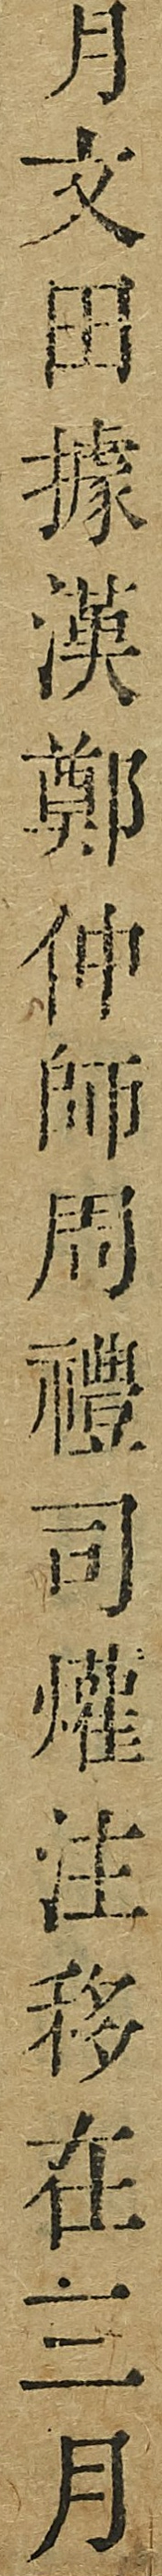文交田據漢鄭仲師周禮司爟注移在三月
